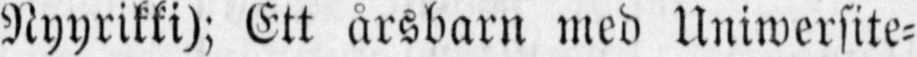Nyyrikki); Ett årsbarn med Uniwersite-
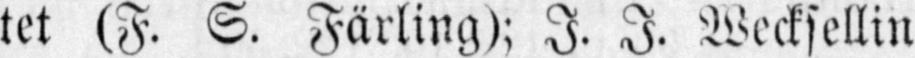tet (F. S. Färling); I. I. Wecksellin
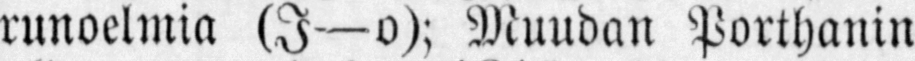runoelmia (I—o); Muudan Porthanin
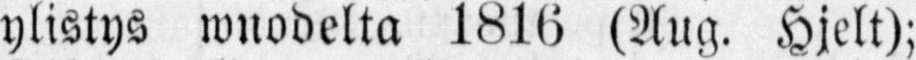ylistys wuodelta 1816 (Aug. Hjelt);
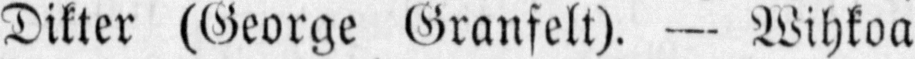Dikter (George Granfelt). — Wihkoa
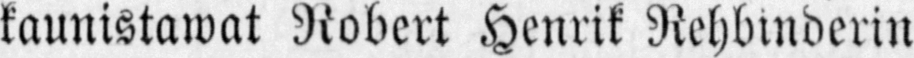kaunistawat Robert Henrik Rehbinderin
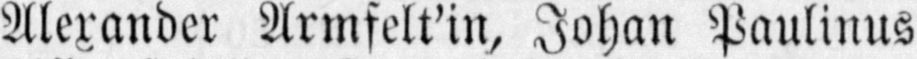Alexander Armfelt'in, Johan Paulinus
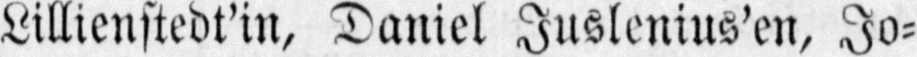Lillienstedt'in, Daniel Juslenius'en, Jo-
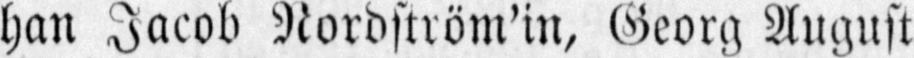han Jacob Nordström'in, Georg August
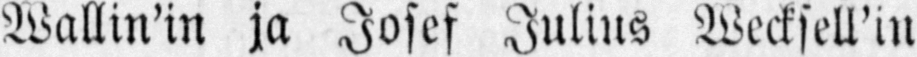Wallin'in ja Josef Julius Wecksell'in
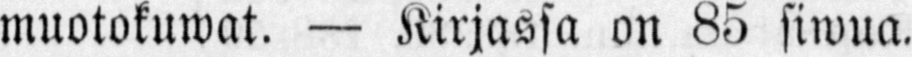muotokuwat. — Kirjassa on 85 siwua.
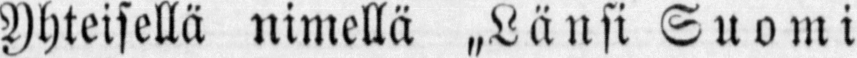yhteisellä nimellä „Länsi Suomi
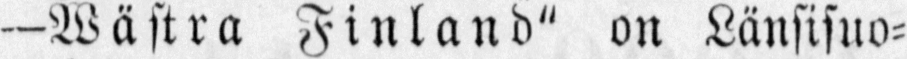—Wästra Finland" on Länsisuo-
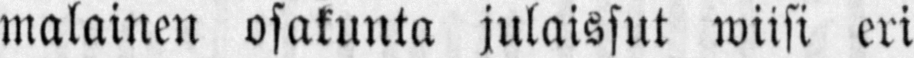malainen osakunta julaissut wiisi eri
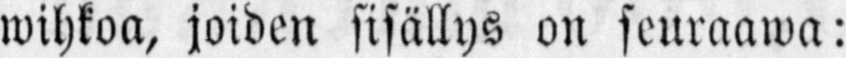wihkoa, joiden sisällys on seuraawa:
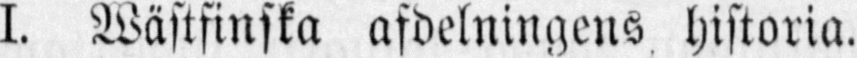I. Wästfinska afdelningens historia.
